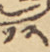༡༢
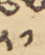༢༡
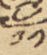༡༡
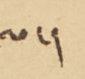ལ་།
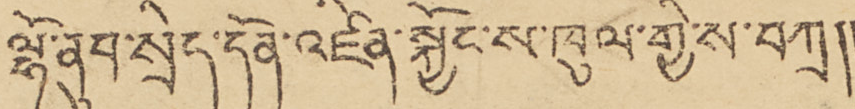ལྷོ་ནུབ་སྲིད་དོན་འཛིན་སྐྱོང་ས་ཁུལ་གྱི་ས་བཀྲ།།
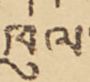ཁུལ་།
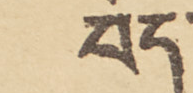བོད་
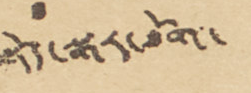སྡོད་སྒར་ཐོག་
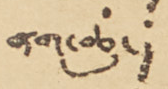ནག་ཆུ་
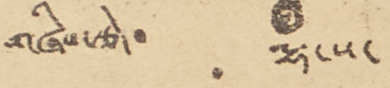གཞིས་རྩེ་ ལྷ་ས་
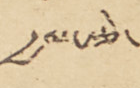རྒྱལ་རྩེ་
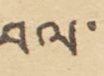བལ་
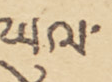ཡུལ་
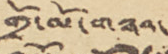གྲོ་མོ་གཉའ་
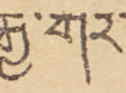རྒྱ་གར་
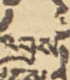འབྲས་
